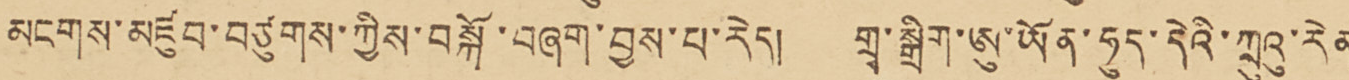མངགས་མཛུབ་བཙུགས་ཀྱིས་བསྐོ་བཞག་བྱས་པ་རེད། གྲྭ་སྒྲིག་ཨུ་ཡོན་ཧུད་དེའི་ཀྲུའུ་རེན་་
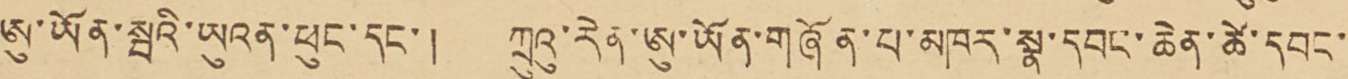ཨུ་ཡོན་སྦའི་ཡུའན་ཕུང་དང་། ཀྲུའུ་རེན་ཨུ་ཡོན་གཞོན་པ་མཁར་སྣ་དབང་་ཆེན་ཚེ་དབང་་་
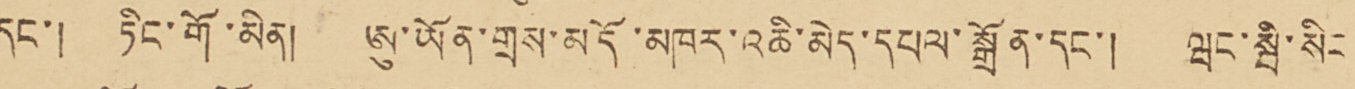དང་། ཏིང་གོ་མིན། ཨུ་ཡོན་གྲས་མདོ་མཁར་འཆི་མེད་དཔལ་སྒྲོན་དང་། ཝང་སྦི་སིང །
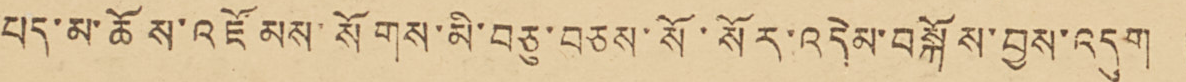པད་མ་ཆོས་འཛོམས་སོགས་མི་བཅུ་བཅས་སོ་སོར་འདེམ་བསྐོས་བྱས་འདུག།
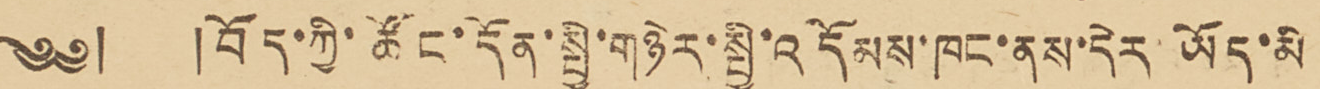༄༅། །བོད་ཀྱི་ཚོང་དོན་སྤྱི་གཉེར་སྤྱི་འདོམས་ཁང་ནས་དེར་ཡོད་མི་
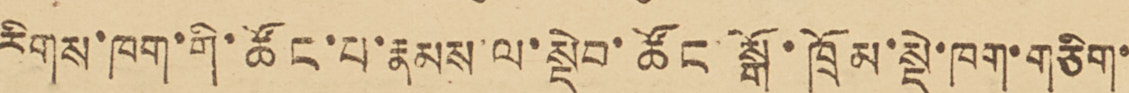རིགས་ཁག་གི་ཚོང་པ་རྣམས་ལ་སྡེབ་ཚོང སྒོ་ཁྲོམ་སྡེ་ཁག་གཅིག་
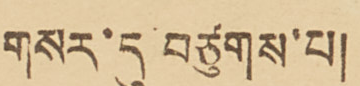གསར་དུ་བཙུགས་པ།
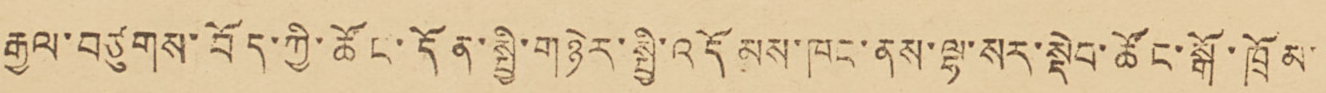རྒྱལ་བཙུགས་བོད་ཀྱི་ཚོང་དོན་སྤྱི་གཉེར་སྤྱི་འདོམས་ཁང་ནས་ལྷ་སར་སྡེབ་ཚོང་སྒོ་ཁྲོམ་་
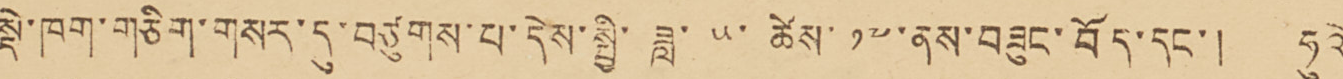སྡེ་ཁག་གཅིག་གསར་དུ་བཙུགས་པ་དེས་སྤྱི་ཟླ་ ༥ ཚེས་ ༡༧ ནས་བཟུང་བོད་དང་། ཧུའེ་
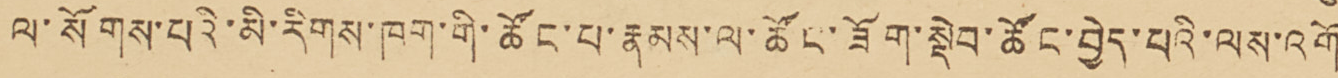ལ་སོགས་པའི་མི་རིགས་ཁག་གི་ཚོང་པ་རྣམས་ལ་ཚོང་ཟོག་སྡེབ་ཚོང་བྱེད་པའི་ལས་འགོ་་
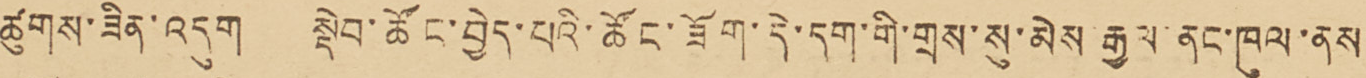ཚུགས་ཟིན་འདུག སྡེབ་ཚོང་བྱེད་པའི་ཚོང་ཟོག་དེ་དག་གི་གྲས་སུ་མེས་རྒྱལ་ནང་ཁུལ་ནས་
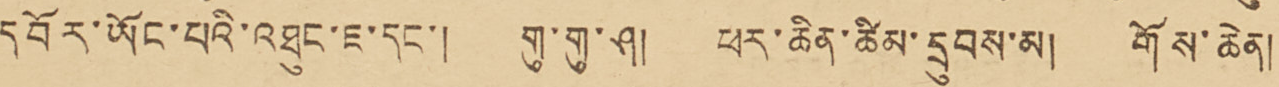དབོར་ཡོང་པའི་འཐུང་ཇ་དང་། གུ་གུ་ཤ།། ཕར་ཆིན་ཚིམ་དྲུབས་མ། གོས་ཆེན།
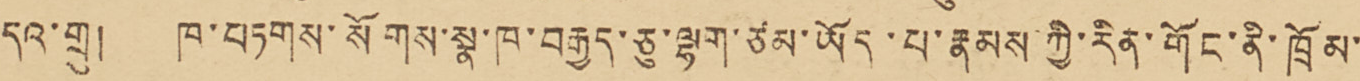དའ་གྲུ། ཁ་བཏགས་སོགས་སྣ་ཁ་བརྒྱད་ཅུ་ལྷག་ཙམ་ཡོད་པ་རྣམས་ཀྱི་རིན་གོང་ནི་ཁྲོམ་་
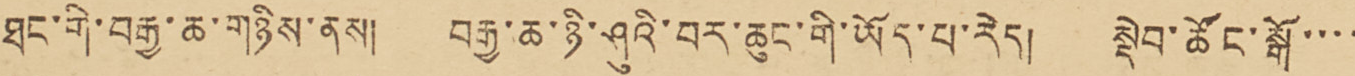ཐང་གི་བརྒྱ་ཆ་གཉིས་ནས། བརྒྱ་ཆ་ཉི་ཤུའི་བར་ཆུང་གི་ཡོད་པ་རེད། སྡེབ་ཚོང་སྒོ་་་་་
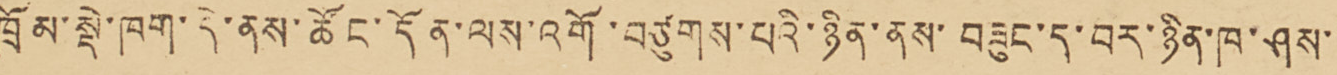ཁྲོམ་སྡེ་ཁག་དེ་ནས་ཚོང་དོན་ལས་འགོ་བཙུགས་པའི་ཉིན་ནས་བཟུང་ད་བར་ཉིན་ཁ་ཤས་་་
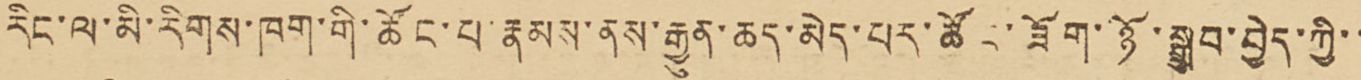རིང་ལ་མི་རིགས་ཁག་གི་ཚོང་པ་རྣམས་ནས་རྒྱུན་ཆད་མེད་པར་ཚོང་ཟོག་ཉོ་སྒྲུབ་བྱེད་ཀྱི་་་
